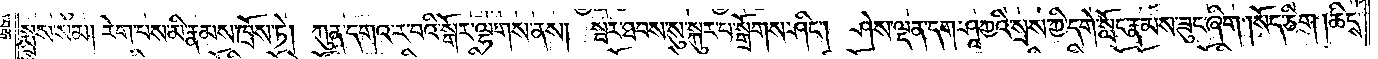སྨྲས་སམ། རེག་པས་མི་རྣམས་ཁྲོས་ཏེ། ཀུན་དགའ་ར་བའི་སྒོར་ལྷགས་ནས། སྦར་ཐབས་སུ་སྐུར་པ་སྒྲོགས་ཤིང༌། ཤེས་ལྡན་དག་ཤཱཀྱའི་སྲས་ཀྱི་དགེ་སློང་རྣམས་ཟུང་ཞིག །སོད་ཅིག །ཆིངས་
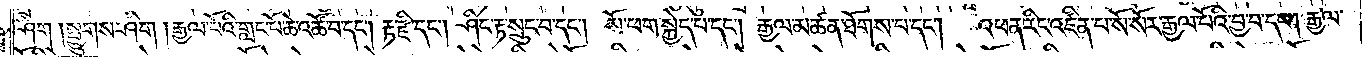ཤིག །སྤྱུགས་ཤིག །རྒྱལ་པོའི་གླང་པོ་ཆེ་འཚོ་བ་དང༌། རྟ་རྫི་དང༌། ཤིང་རྟ་སྲུང་བ་དང༌། སོ་ཕག་སྐྱེད་པ་དང༌། རྒྱལ་མཚན་ཐོགས་པ་དང༌། འཕན་རིང་འཛིན་པ་སོ་སོར་རྒྱལ་པོའི་བྱ་བ་དང༌། རྒྱལ་
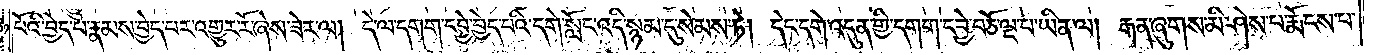པོའི་བྱེད་པ་རྣམས་བྱེད་པར་འགྱུར་རོ་ཞེས་ཟེར་ལ། དེ་ལ་དགག་དབྱེ་བྱེད་པའི་དགེ་སློང་འདི་སྙམ་དུ་སེམས་ཏེ། དེང་དགེ་འདུན་གྱི་དགག་དབྱེ་བཅོ་ལྔ་པ་ཡིན་ལ། རྒན་ཞུགས་མི་ཤེས་པ་རྨོངས་པ་
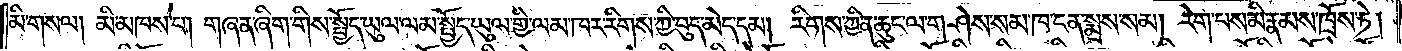མི་གསལ། མི་མཁས་པ། གཞན་ཞིག་གིས་སྤྱོད་ཡུལ་ལམ་སྤྱོད་ཡུལ་གྱི་ལམ་ཁར་རིགས་ཀྱི་བུད་མེད་དམ། རིགས་ཀྱི་ན་ཆུང་ལ་གཤེས་སམ་ཁ་ངན་སྨྲས་སམ། རེག་པས་མི་རྣམས་ཁྲོས་ཏེ།
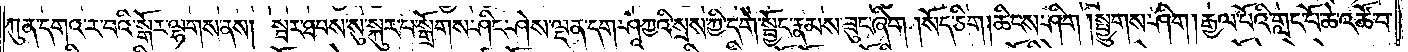ཀུན་དགའ་ར་བའི་སྒོར་ལྷགས་ནས། སྦར་ཐབས་སུ་སྐུར་པ་སྒྲོགས་ཤིང་ཤེས་ལྡན་དག་ཤཱཀྱའི་སྲས་ཀྱི་དགེ་སྦྱོང་རྣམས་ཟུང་ཞིག །སོད་ཅིག །ཆིངས་ཤིག །སྤྱུགས་ཤིག། རྒྱལ་པོའི་གླང་པོ་ཆེ་འཚོ་བ་
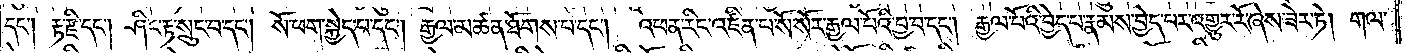དང༌། རྟ་རྫི་དང༌། ཤིང་རྟ་སྲུང་བ་དང༌། སོ་ཕག་སྐྱེད་པ་དང༌། རྒྱལ་མཚན་ཐོགས་པ་དང༌། འཕན་རིང་འཛིན་པ་སོ་སོར་རྒྱལ་པོའི་བྱ་བ་དང༌། རྒྱལ་པོའི་བྱེད་པ་རྣམས་བྱེད་པར་འགྱུར་རོ་ཞེས་ཟེར་ཏེ། གལ་
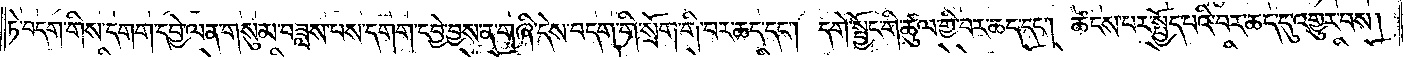ཏེ་བདག་གིས་དགག་དབྱེ་ལན་གསུམ་བཟླས་པས་དགག་དབྱེ་བྱས་ན་གཞི་དེས་བདག་གི་སྲོག་གི་བར་ཆད་དང༌། དགེ་སྦྱོང་གི་ཚུལ་གྱི་བར་ཆད་དང༌། ཚངས་པར་སྤྱོད་པའི་བར་ཆད་དུ་འགྱུར་པས།
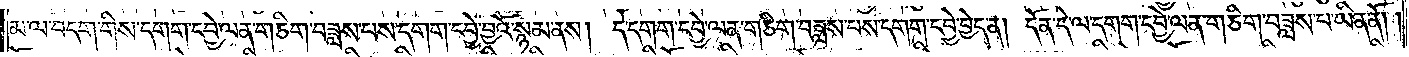མ་ལ་བདག་གིས་དགག་དབྱེ་ལན་གཅིག་བཟླས་པས་དགག་དབྱེ་བྱའོ་སྙམ་ནས། དེ་དགག་དབྱེ་ལན་གཅིག་བཟླས་པས་དགག་དབྱེ་བྱེད་ན། དོན་དེ་ལ་དགག་དབྱེ་ལན་གཅིག་བཟླས་པ་ཡིན་ནོ། །
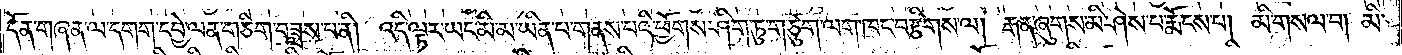དོན་གཞན་ལ་དགག་དབྱེ་ལན་གཅིག་བཟླས་པ་ནི། འདི་ལྟར་ཡང་མི་མ་ཡིན་པ་གནས་པའི་ཕྱོགས་ཤིག་ཏུ་གཙུག་ལག་ཁང་བརྩིགས་ལ། རྒན་ཞུགས་མི་ཤེས་པ་རྨོངས་པ། མི་གསལ་བ། མི་
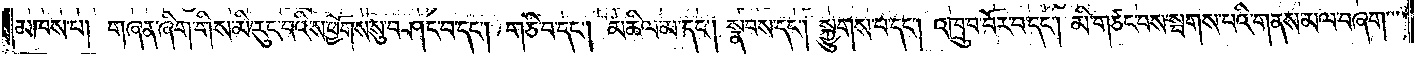མཁས་པ། གཞན་ཞིག་གིས་མི་རུང་བའི་ས་ཕྱོགས་སུ་བཤང་བ་དང༌། གཅི་བ་དང༌། མཆིལ་མ་དང༌། སྣབས་དང༌། སྐྱུགས་པ་དང༌། འཁྲུ་བ་བོར་བ་དང༌། མི་གཙང་བས་སྤགས་པའི་གནས་མལ་བཞག་
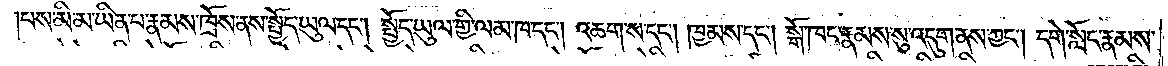།པས་མི་མ་ཡིན་པ་རྣམས་ཁྲོས་ནས་སྤྱོད་ཡུལ་དང༌། སྤྱོད་ཡུལ་གྱི་ལམ་ཁ་དང༌། འཆག་ས་དང༌། ཁྱམས་དང༌། སྒོ་ཁང་རྣམས་སུ་འདུག་ནས་ཀྱང༌། དགེ་སློང་རྣམས་
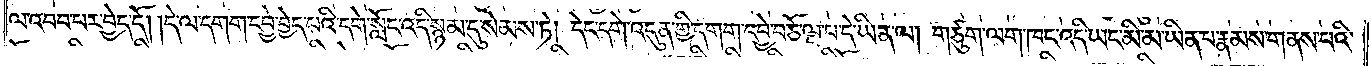ལ་འབབ་པར་བྱེད་དོ། །དེ་ལ་དགག་དབྱེ་བྱེད་པའི་དགེ་སློང་འདི་སྙམ་དུ་སེམས་ཏེ། དེང་དགེ་འདུན་གྱི་དགག་དབྱེ་བཅོ་ལྔ་པ་དེ་ཡིན་ལ། གཙུག་ལག་ཁང་འདི་ཡང་མི་མ་ཡིན་པ་རྣམས་གནས་པའི་
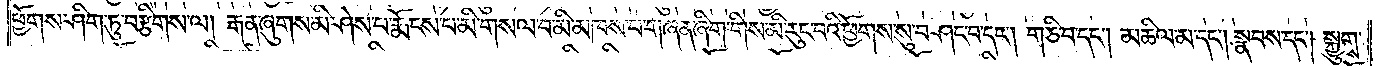ཕྱོགས་ཤིག་ཏུ་བརྩིགས་ལ། རྒན་ཞུགས་ཡི་ཤེས་པ་རྨོངས་པ་མི་གསལ་བ་མི་མཁས་པ་གཞན་ཞིག་གིས་མི་རུང་བའི་ཕྱོགས་སུ་བཤང་བ་དང༌། གཅི་བ་དང༌། མཆིལ་མ་དང༌། སྣབས་དང༌། སྐྱུགས་
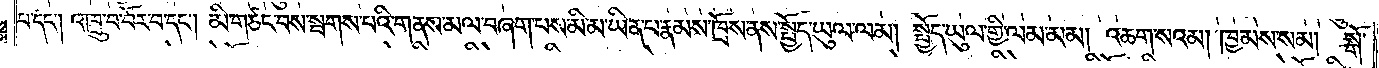པ་དང༌། འཁྲུ་བ་བོར་བ་དང༌། མི་གཙང་བས་སྦགས་པའི་གནས་མལ་བཞག་པས་མི་མ་ཡིན་པ་རྣམས་ཁྲོས་ནས་སྤྱོད་ཡུལ་ལམ། སྤྱོད་ཡུལ་གྱི་ལམ་མམ། འཆག་སའམ། ཁྱམས་སམ། སྒོ་
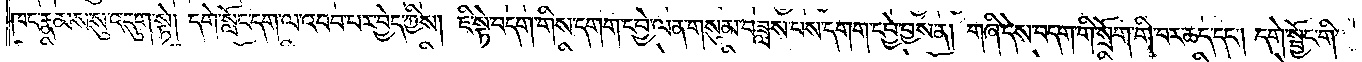ཁང་རྣམས་སུ་འདུག་སྟེ། དགེ་སློང་དག་ལ་འབབ་པར་བྱེད་ཀྱིས། ཇི་སྟེ་བདག་གིས་དགག་དབྱེ་ལན་གསུམ་བཟླས་པས་དགག་དབྱེ་བྱས་ན། གཞི་དེས་བདག་གི་སྲོག་གི་བར་ཆད་དང༌། དགེ་སྦྱོང་གི་
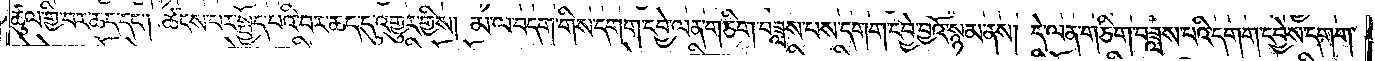ཚུལ་གྱི་བར་ཆད་དང༌། ཚངས་པར་སྤྱོད་པའི་བར་ཆད་དུ་འགྱུར་གྱིས། མ་ལ་བདག་གིས་དགག་དབྱེ་ལན་གཅིག་བཟླས་པས་དགག་དབྱེ་བྱའོ་སྙམ་ནས། དེ་ལན་གཅིག་བཟླས་པའི་དགག་དབྱེས་དགག་
